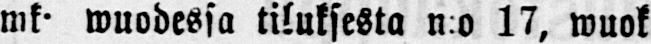mk wuodessa tiluksesta n:o 17, wuok-
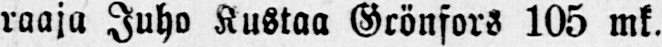raaja Juho Kustaa Grönfors 105 mk.
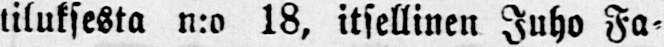tiluksesta n:o 18, itsellinen Juho Fa-
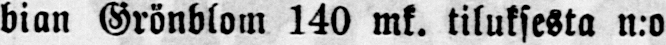bian Grönblom 140 mk. tiluksesta n:o
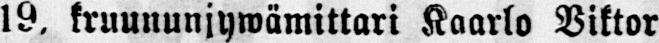l9. kruununjywämittari Kaarlo Viktor
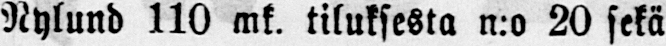Nylund 110 mk. tiluksesta n:o 20 sekä
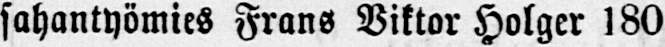sahantyömies Frans Viktor Holger 180
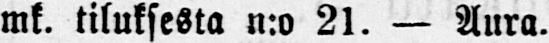mk. tiluksesta n:o 21. — Aura.
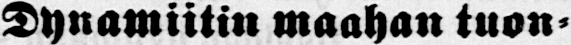— Dynamiitin maahan tuon-
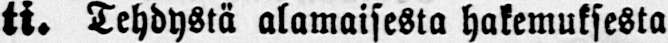ti. Tehdystä alamaisesta hakemuksesta
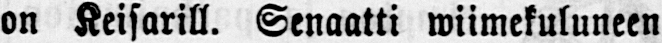on Keisarill. Senaatti wiimekuluneen
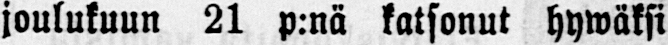joulukuun 21 p:nä katsonut hywäksi
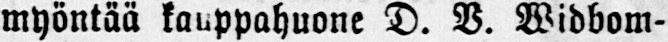myöntää kauppahuone D. B. Widbom-
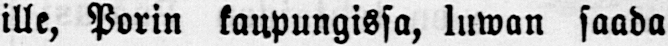ille, Porin kaupungissa, luwan saada
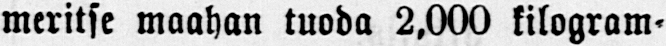meritse maahan tuoda 2,000 kilogram-
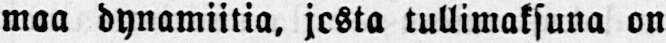maa dynamiitia, josta tullimaksuna on
